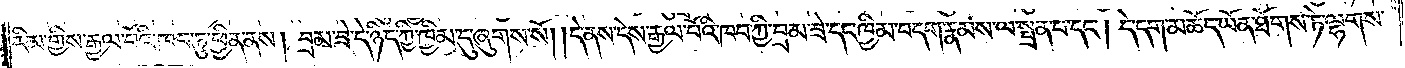རིམ་གྱིས་རྒྱལ་པོའི་ཁབ་ཏུ་ཕྱིན་ནས། བྲམ་ཟེ་དེ་ཉིད་ཀྱི་ཁྱིམ་དུ་ཞུགས་སོ། །དེ་ནས་དེས་རྒྱལ་པོའི་ཁབ་ཀྱི་བྲམ་ཟེ་དང་ཁྱིམ་བདག་རྣམས་ལ་སྦྲན་པ་དང༌། དེ་དག་མཆོད་ཡོན་ཐོགས་ཏེ་ལྷགས་
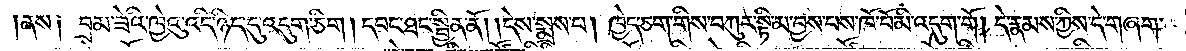ནས༑ བྲམ་ཟེའི་ཁྱེའུ་འདི་ཉིད་དུ་འདུག་ཅིག །དབང་ཐང་སྦྱིན་ནོ། །དེས་སྨྲས་པ། ཁྱེད་ཅག་གིས་བཀུར་སྟི་མ་བྱས་པས་ཁོ་བོ་མི་འདུག་གོ །དེ་རྣམས་ཀྱིས་དེ་གཞག་
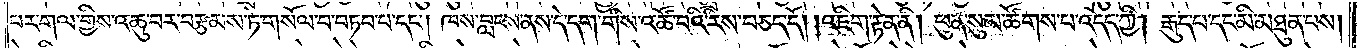པར་གལ་གྱིས་འཆུ་བར་བརྩམས་ཏེ་གསོལ་བ་བཏབ་པ་དང༌། ཁས་བླངས་ནས་དེ་དག་གིས་འཚོ་བའི་རིས་བཅད་དོ། །འཇིག་རྟེན་ནི། ཕུན་སུམ་ཚོགས་པ་འདོད་ཀྱི། རྒྱུད་པ་དང་མི་མཐུན་པས།
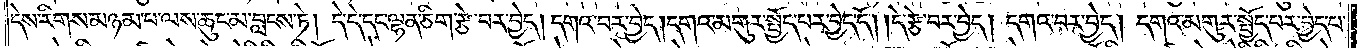དེས་རིགས་མཉམ་པ་ལས་ཆུང་མ་བླངས་ཏེ། དེ་དེ་དང་ལྷན་ཅིག་རྩེ་བར་བྱེད། དགའ་བར་བྱེད། དགའ་མགུར་སྤྱོད་པར་བྱེད་དོ། །དེ་རྩེ་བར་བྱེད། དགའ་བར་བྱེད། དགའ་མགུར་སྤྱོད་པར་བྱེད་པ་
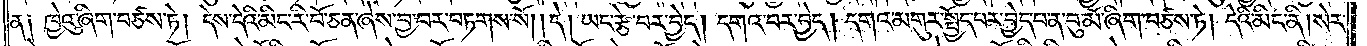ན༑ ཁྱེའུ་ཞིག་བཙས་ཏེ། དེས་དེའི་མིང་རི་བོ་ཅན་ཞེས་བྱ་བར་བཏགས་སོ། །དེ། ཡང་རྩེ་བར་བྱེད། དགའ་བར་བྱེད། དགའ་མགུར་སྤྱོད་པར་བྱེད་པ་ན་བུ་མོ་ཞིག་བཙས་ཏེ། དེའི་མིང་ནི། སེར་
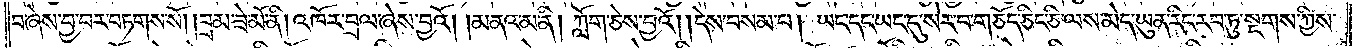བ་ཞེས་བྱ་བར་བཏགས་སོ། །བྲམ་ཟེ་མོ་ནི། འཁོར་བྲལ་ཞེས་བྱའོ། །མནའ་མ་ནི། ཀློག་ཅེས་བྱའོ། །དེས་བསམ་པ། ཡང་དང་ཡང་དུ་སེར་བ་གཅོད་ཅིང་ཅི་ལས་མེད་ཡུན་རིང་རབ་ཏུ་སྔགས་ཀྱིས་
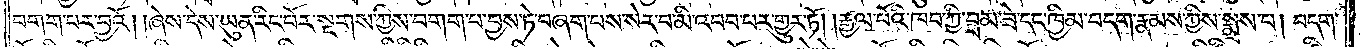བགག་པར་བྱའོ། །ཞེས་དེས་ཡུན་རིང་པོར་སྔགས་ཀྱིས་བགག་པ་བྱས་ཏེ་བཞག་པས་སེར་བ་མི་འབབ་པར་གྱུར་ཏོ། །རྒྱལ་པོའི་ཁབ་ཀྱི་བྲམ་ཟེ་དང་ཁྱིམ་བདག་རྣམས་ཀྱིས་སྨྲས་པ། བདག་
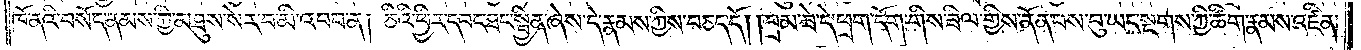ཁོ་ནའི་བསོད་ནམས་ཀྱི་མཐུས་སེར་བ་མི་འབབ་ན། ཅིའི་ཕྱིར་དབང་ཐང་སྦྱིན་ཞེས་དེ་རྣམས་ཀྱིས་བཅད་དོ། །བྲམ་ཟེ་དེ་ཕྲག་དོག་གིས་ཟིལ་གྱིས་ནོན་པས་བུ་ཡང་སྔགས་ཀྱི་ཚིག་རྣམས་འཛིན་
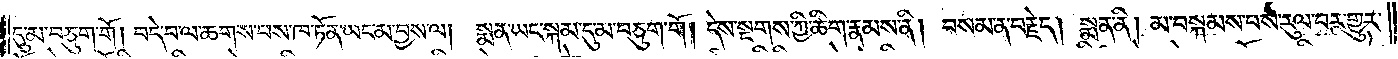དུ་མ་བཅུག་གོ །བདེ་བ་ལ་ཆགས་པས་ཁ་ཏོན་ཡང་མ་བྱས་ལ། སྨན་ཡང་སྐམ་དུ་མ་བཅུག་གོ །དེས་སྔགས་ཀྱི་ཚིག་རྣམས་ནི། བསམ་ན་བརྗེད། སྨན་ནི། མ་བསྐམས་པས་རུལ་བར་གྱུར་
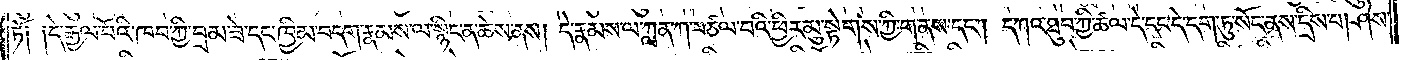ཏོ༑ ༑དེ་རྒྱལ་པོའི་ཁབ་ཀྱི་བྲམ་ཟེ་དང་ཁྱིམ་བདག་རྣམས་ལ་སྙིང་ན་ཆེས་ནས། དེ་རྣམས་ལ་ཀླན་ཀ་བཙལ་བའི་ཕྱིར་མུ་སྟེགས་ཀྱི་གནས་དང༌། དཀའ་ཐུབ་ཀྱི་ཚལ་དེ་དང་དེ་དག་ཏུ་སོང་ནས་དྲིས་པ། ཤེས་
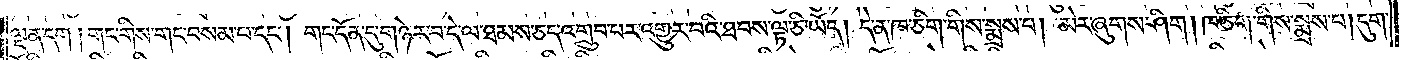ལྡན་དག །གང་གིས་གང་བསམ་པ་དང༌། གང་དོན་དུ་གཉེར་བ་དེ་ལ་ཐམས་ཅད་འགྲུབ་པར་འགྱུར་བའི་ཐབས་ལྟ་ཅི་ཡོད། དེ་ན་ཁ་ཅིག་གིས་སྨྲས་པ། མེར་ཞུགས་ཤིག །ཁ་ཅིག་གིས་སྨྲས་པ། དུག་
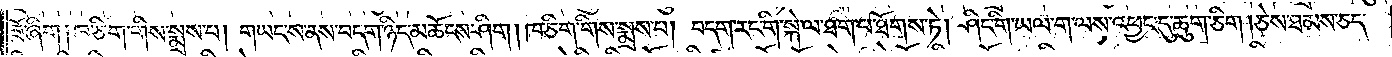ཟོ་ཞིག །ཁ་ཅིག་གིས་སྨྲས་པ། གཡང་ས་ནས་བདག་ཉིད་མཆོངས་ཤིག །ཁ་ཅིག་གིས་སྨྲས་པ། བདག་རང་གི་སྐེ་ལ་ཐག་པ་ཐོགས་ཏེ། ཤིང་གི་ཡལ་ག་ལས་འཕྱང་དུ་ཆུག་ཅིག །ཅེས་ཐམས་ཅད་
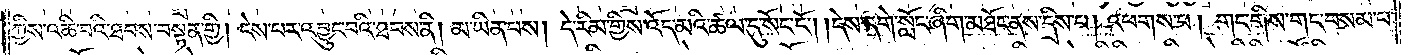ཀྱིས་འཆི་བའི་ཐབས་བསྟན་གྱི། ངེས་པར་འབྱུང་བའི་ཐབས་ནི། མ་ཡིན་པས། དེ་རིམ་གྱིས་འོད་མའི་ཚལ་དུ་སོང་ངོ༌། །དེས་དགེ་སློང་ཞིག་མཐོང་ནས་དྲིས་པ། འཕགས་པ། གང་གིས་གང་བསམ་པ་
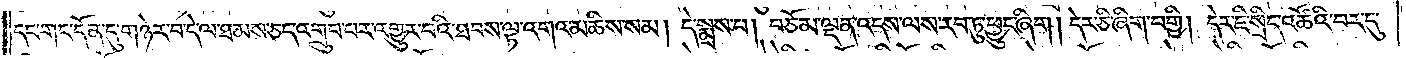དང་གང་དོན་དུ་གཉེར་བ་དེ་ལ་ཐམས་ཅད་འགྲུབ་པར་འགྱུར་བའི་ཐབས་ལྟ་འགའ་མཆིས་སམ། དེ་སྨྲས་པ། བཅོམ་ལྡན་འདས་ལས་རབ་ཏུ་ཕྱུང་ཞིག །དེར་ཅི་ཞིག་བགྱི། དེར་ཇི་སྲིད་འཚོའི་བར་དུ་
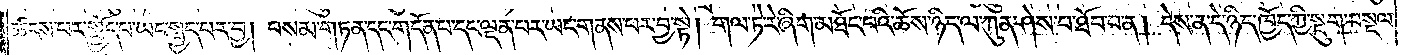ཚངས་པར་སྤྱོད་པ་ཡང་སྤྱད་པར་བྱ། བསམ་གཏན་དང་གདོན་པ་དང་ལྡན་པར་ཡང་གནས་པར་བྱ་སྟེ། གལ་ཏེ་རེ་ཞིག་མཐོང་བའི་ཆོས་ཉིད་ལ་ཀུན་ཤེས་པ་ཐོབ་པ་ན། དེས་ན་དེ་ཉིད་ཁྱོད་ཀྱི་སྡུག་བསྔལ་
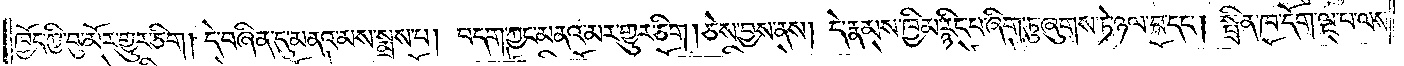ཁྱོད་ཀྱི་བུ་མོར་གྱུར་ཅིག། དེ་བཞིན་དུ་མནའ་མས་སྨྲས་པ། བདག་ཀྱང་མནའ་མར་གྱུར་ཅིག། ཅེས་བྱས་ནས། དེ་རྣམས་ཁྱིམ་རྙིང་པ་ཞིག་ཏུ་ཞུགས་ཏེ་ཉལ་བ་དང༌། སྤྲིན་ཁ་དོག་ལྔ་པ་ལས་
